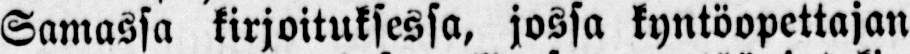Samassa kirjoituksessa, jossa kyntöopettajan
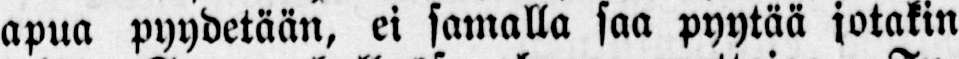apua pyydetään, ei samalla saa pyytää jotakin
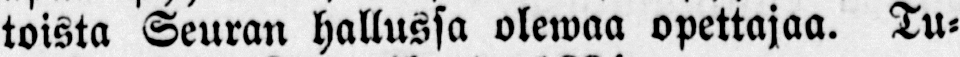toista Seuran hallussa olewaa opettajaa. Tu-
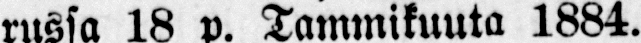russa 18 p. Tammikuuta 1884.
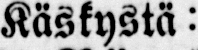Käskystä:
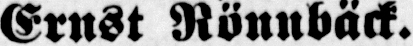Ernst Rönnbäck.
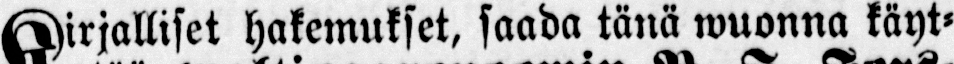Kirjalliset hakemukset, saada tänä wuonna käyt-
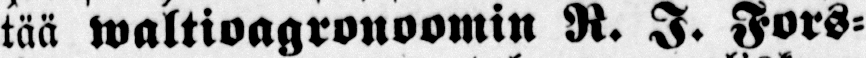tää waltioagronoomin R. I. Fors-
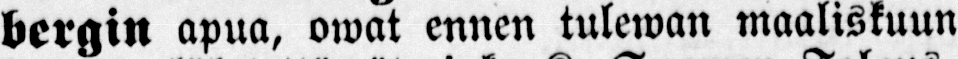bergin apua, owat ennen tulewan maaliskuun
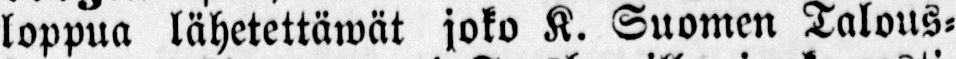loppua lähetettäwät joko K. Suomen Talous-
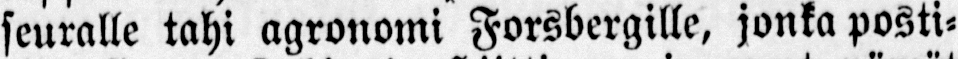seuralle tahi agronomi Forsbergille, jonka posti-
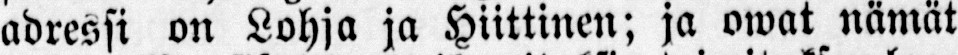adressi on Lohja ja Hiittinen; ja owat nämät
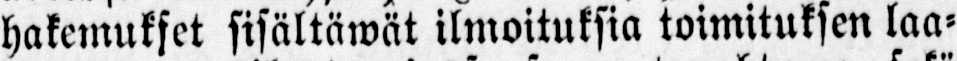hakemukset sisältäwät ilmoituksia toimituksen laa-
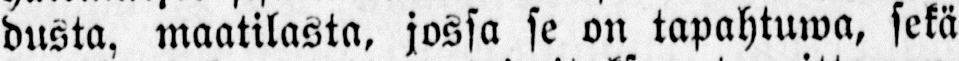dusta, maatilasta, jossa se on tapahtuwa, sekä
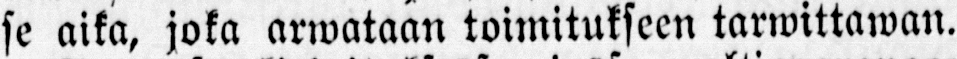se aika, joka arwataan toimitukseen tarwittawan.
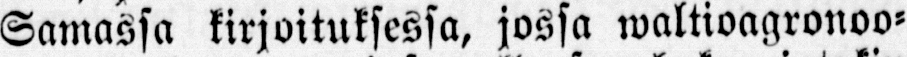Samassa kirjoituksessa, jossa waltioagronoo-
